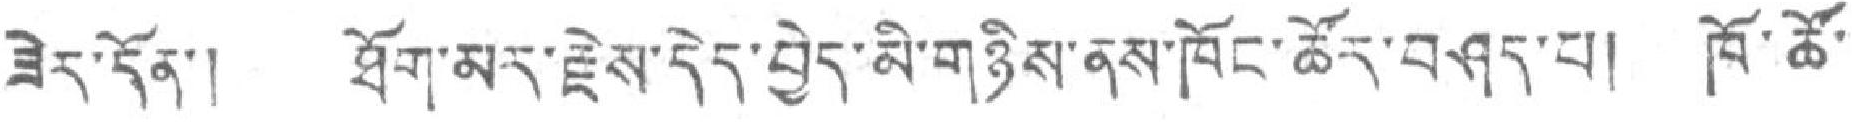ཟེར་དོན་། ཐོག་མར་རྗེས་དེད་བྱེད་མི་གཉིས་ནས་ཁོང་ཚོར་བཤད་པ། ཁོ་ཚོ་
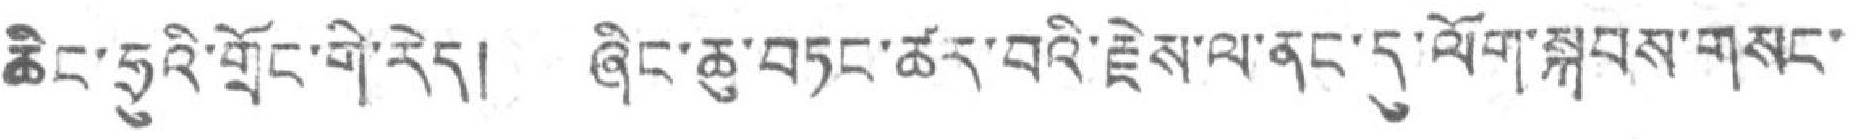ཆིང་ཧྲུའི་གྲོང་གི་རེད། ཞིང་ཆུ་བཏང་ཚར་བའི་རྗེས་ལ་ནང་དུ་ལོག་སྐབས་གསང་
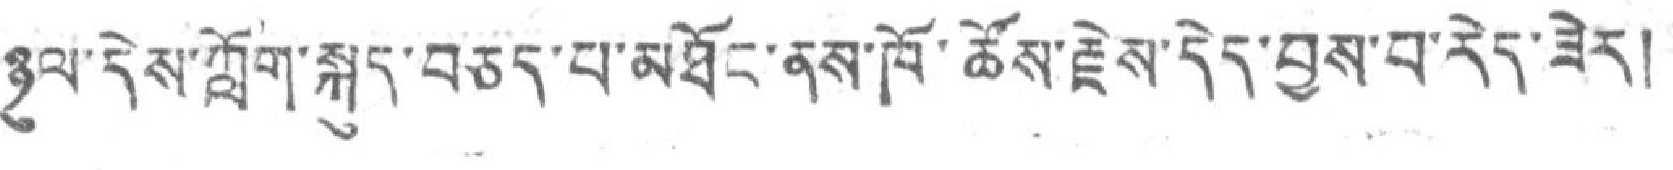ཉུལ་དེས་ཀློག་སྐུད་བཅད་པ་མཐོང་ནས་ཁོ་ཚོས་རྗེས་དེད་བྱས་བ་རེད་ཟེར།
